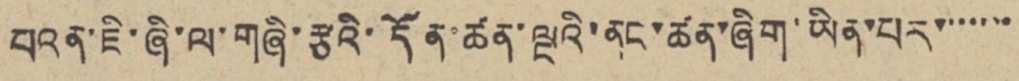པའན་ཇི་ཞི་ལ་གཞི་རྩའི་དོན་ཚན་ལྔའི་ནང་ཚན་ཞིག་ཡིན་པར་་་་་་་
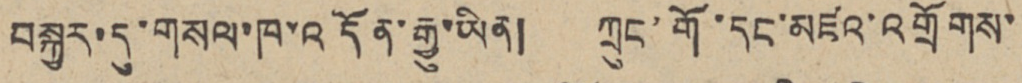བསྐྱར་དུ་གསལ་ཁ་འདོན་རྒྱུ་ཡིན། ཀྲུང་གོ་དང་མཛའ་འགྲོགས་
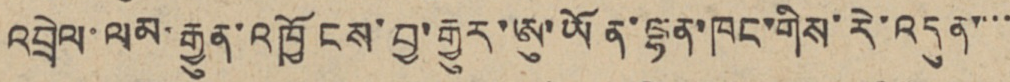འབྲེལ་ལམ་རྒྱུན་འཁྱོངས་བྱ་རྒྱུར་ཨུ་ཡོན་ལྷན་ཁང་གིས་རེ་འདུན་་་་
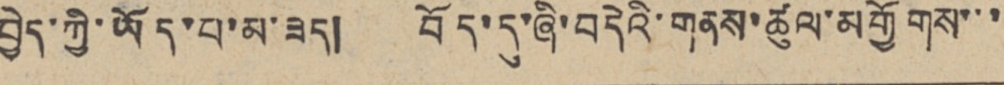བྱེད་ཀྱི་ཡོད་པ་མ་ཟད། བོད་དུ་ཞི་བདེའི་གནས་ཚུལ་མགྱོགས་་་
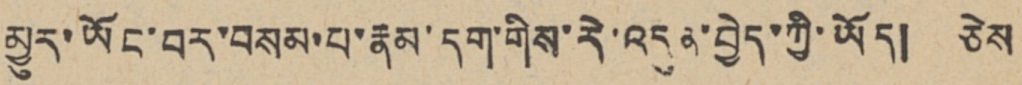མྱུར་ཡོང་བར་བསམ་པ་རྣམ་དག་གིས་རེ་འདུན་བྱེད་ཀྱི་ཡོད། ཅེས
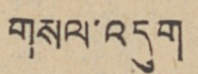གསལ་འདུག
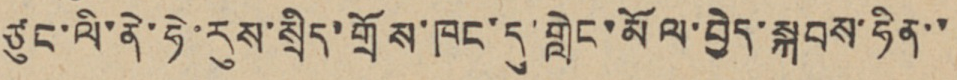ཙུང་ལི་ནེ་ཧེ་རུས་སྲིད་གྲོས་ཁང་དུ་གླེང་མོལ་བྱེད་སྐབས་ཧིན་་
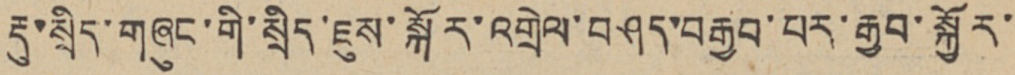རྡུ་སྲིད་གཞུང་གི་སྲིད་ཇུས་སྐོར་འགྲེལ་བཤད་བརྒྱབ་པར་རྒྱབ་སྐྱོར་
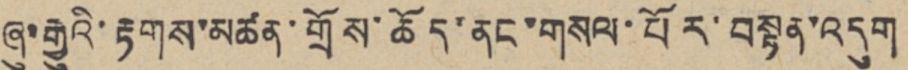ཞུ་རྒྱུའི་རྟགས་མཚན་གྲོས་ཆོད་ནང་གསལ་པོར་བསྟན་འདུག
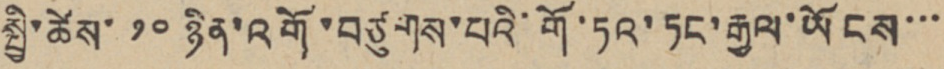སྤྱི་ཚེས་ ༡༠ ཉིན་འགོ་བཙུགས་པའི་གོ་ཏའ་ཏང་རྒྱལ་ཡོངས་་་
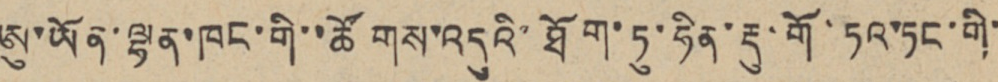ཨུ་ཡོན་ལྷན་ཁང་གི་་ཚོགས་འདུའི་ཐོག་ཏུ་ཧིན་རྡུ་གོ་ཏའ་ཏང་གི་
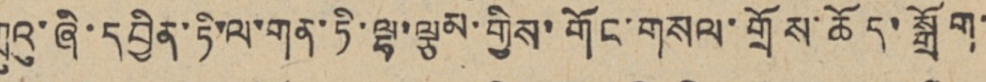ཀྲུའུ་ཞི་དབྱིན་ཏི་ལ་གན་ཏི་ལྷ་ལྕམ་གྱིས་གོང་གསལ་གྲོས་ཆོད་སྒྲོག་
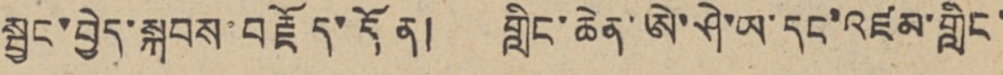སྦྱང་བྱེད་སྐབས་བརྗོད་དོན། གླིང་ཆེན་ཨེ་ཤེ་ཡ་དང་འཛམ་གླིང་
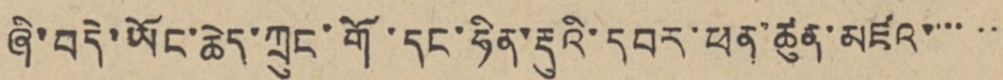ཞི་བདེ་ཡོང་ཆེད་ཀྲུང་གོ་དང་ཧིན་རྡུའི་དབར་ཕན་ཚུན་མཛའ་་་་་་་
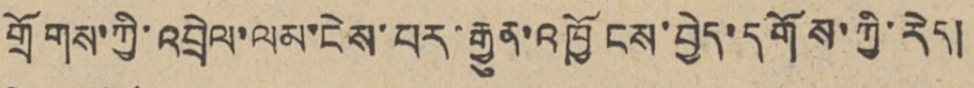གྲོགས་ཀྱི་འབྲེལ་ལམ་ངེས་པར་རྒྱུན་འཁྱོངས་བྱེད་དགོས་ཀྱི་རེད།
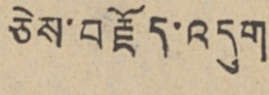ཅེས་བརྗོད་འདུག
